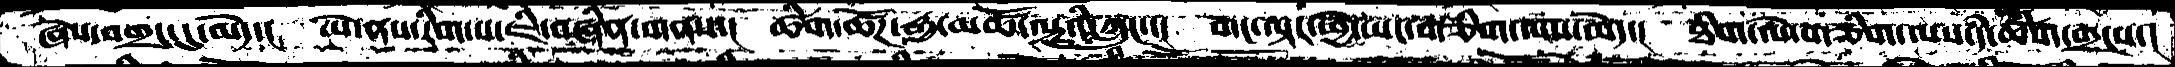ཞེས་བགྲང་དུ་མེད་།   ཡེ་ནས་རིག་པ་ཇི་བཞིན་གནས་།  ཚིག་ཚོཌ་རྒྱ་མཚོ་ལྟུའི་ཀླུང་་།  གང་ལྟར་ཕྱེ་ཡང་གཅིག་ལས་མེད་།  ཐིག་ལེ་གཅིག་ལས་དཾ་ཚིག་གྲངས་།
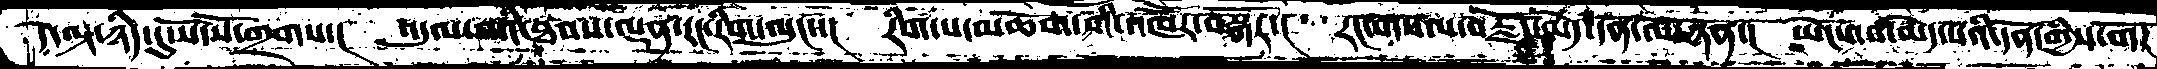དེ་ལྟ་ཉིད་དུ་སོ་སོ་གྲགས་། འདུལ་ཡིད་ཐབས་ལྡན་རང་རིག་ལུང་་། རིག་པ་མཆོག་གི་འཁཽར་བསྐོར་། རང་གསལ་བརྗོད་མེད་དོན་ལ་ཉན་། ཡེངས་པ་མེད་པའི་དོན་གྱིས་གོཌ
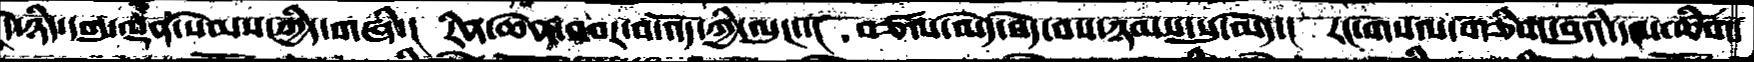དེ་ཉིད་དགུ་ལྡན་སེམས་ཀྱིད་གཞི་།  རིན་ཆེན་འབར་བ་འོད་ཀྱི་ལུང་་།  བཙལ་མེད་བདེ་བས་ཉམས་སུ་མེད་།  རང་གསལ་གཅིག་བུའི་དམ་ཚིག་
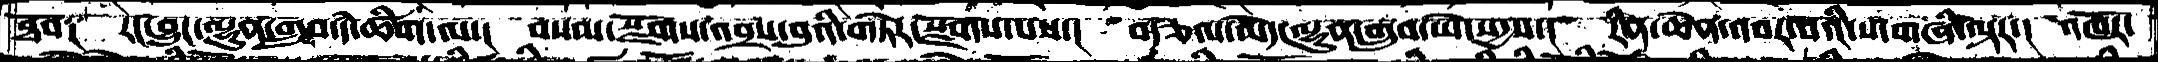ཐོབ༑  རང་བྱུང་ལྷུན་གྲུབ་དཾ་ཚིག་ལ་།  བསམ་སྫོགས་འབྲས་བུའི་གཏེར་སྫོགས་པས་།  བརྩལ་མེད་ལྷུན་གྲུབ་ཡེ་སདྱས་།  རིིན་ཆེན་འབར་བའི་ས་གཞི་ལྟར་།  འཁོར་
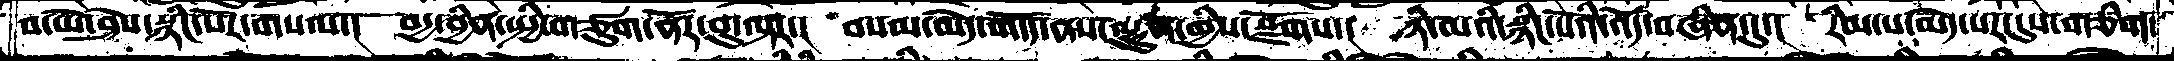བ་ཡེ་ཤེས་སྙིང་པོར་གསལ་།  བདྱ་བྱིན་སྤྱི་གཙུག་ནོར་བུ་ལྟར་།  བསམ་མེད་གདོད་ནས་ལྷུན་གྱིས་སྫོགས་།  ཉི་མའི་སྙིང་པོའི་འོད་བཞིན་དུ་།  རིམ་པ་མེད་པར་དུས་གཅིག་
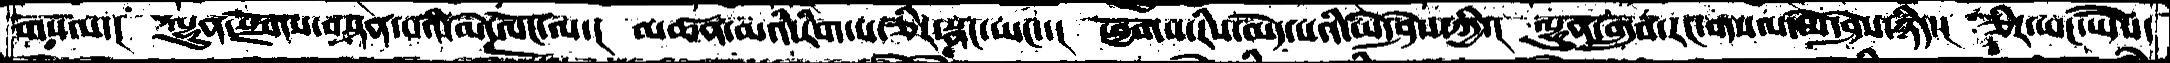གསལ་།  ལྷུན་སྫོགས་བསྟན་པའི་མེ་ལོང་ལ་།  མཚན་མའི་རིག་པ་ཅིར་སྣང་ཡང་་།  ཕྱོགས་རིས་མེད་པའི་ཡེ་ཤེས་ཀྱི་།  ལྷུན་གྲུབ་རང་གསལ་ཡེ་ཤེས་ཉིད་།  ཅིར་ཡང་ཡཻས་
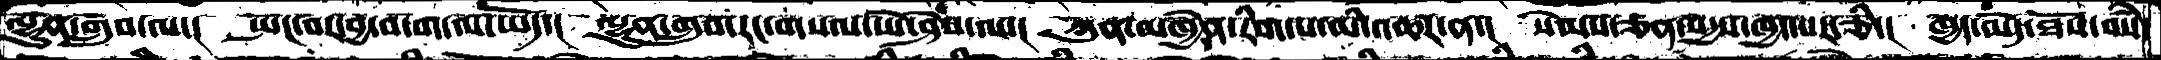ལྷུན་གྲུབ་ལ་།  སྤང་བར་བྱ་བ་ག་ལ་ཡོད་།  ལྷུན་གྲུབ་རང་གསལ་ཡེ་ཤེས་ལ་།  ཀུན་མཁྱེན་རིག་པ་མི་འཆར་ན་།  སེམས་ཅན་སདྱས་ཁྱད་པར་ཅི་།  ཁྱད་མེད་ཐོས་བསཾ་
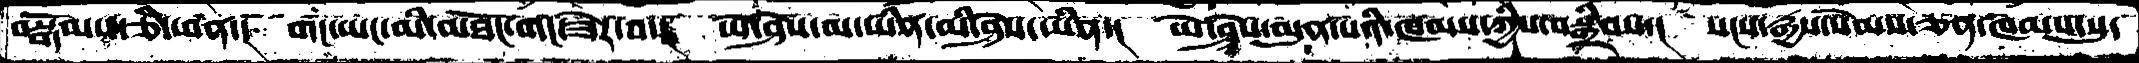བསྒོམས་ཅི་ཕན་།  གང་ཡང་མི་མཐོང་གང་ཟེར་བ་།  ཡེ་ཤེས་མ་ཡིན་མི་ཤེས་ཡིན་ ཡེ་ཤེས་མུན་པའི་ཁམས་ཀྱིས་བསྒྲིབས་།  སངས་རྒྱས་སེམས་ཅན་ཁམས་སུ་
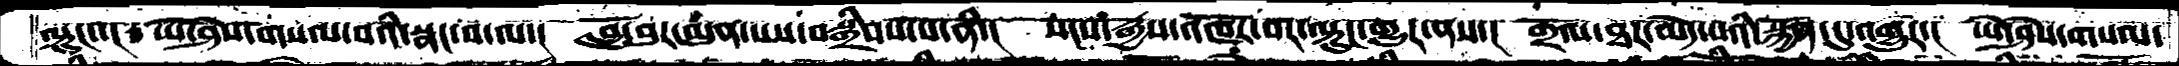ལྟུང་་།  ཡེ་ཤེས་གསལ་བའི་སྣང་བ་ལ་།  བློ་བུར་མུན་པས་བསྒྲིབས་པ་ནི་།  སངས་རྒྱས་འཁོར་བར་ལྟུང་གྱུར་ནས་།  གྲོལ་ཐར་མེད་པའི་སྐྱོན་དུ་འགྱུར་།  ཡེ་ཤེས་གསལ་
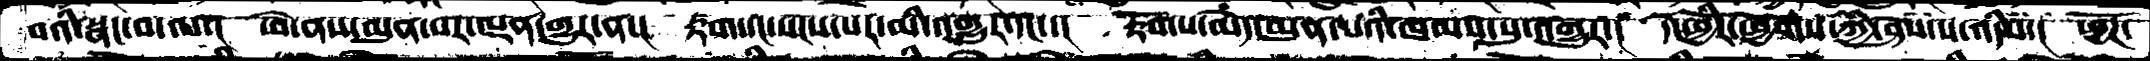བའི་སྣང་བ་ལ་།  ཡེ་ནས་མུན་པར་ལྡན་གྱུར་ན་།  རྟག་དང་སངས་པར་མི་འགྱུར་དང་་།  རྟོགས་མེད་མུན་པའི་ཁམས་སུ་འགྱུར་།  དེ་ཕྱིར་ཕྱོགས་ཀྱི་ཤེས་པ་འདིས་།  ཕྱོཌ་
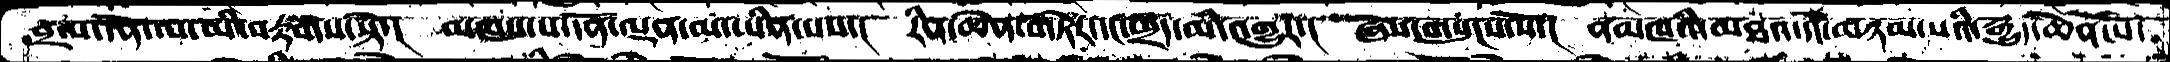བྲལ་དོན་ལ་མི་བརྟགས་སྟེ་།  མཁས་པ་དོན་ལྡན་མ་ཡིན་པས་།  རིན་ཆེན་གཏེར་དང་ཕྲད་མི་འགྱུར་།  ཞེས་གསུངས་སོ་།  ནམཁའི་མཐའ་དང་མཉམ་པའི་རྒྱུད་ཆེན་པོ་
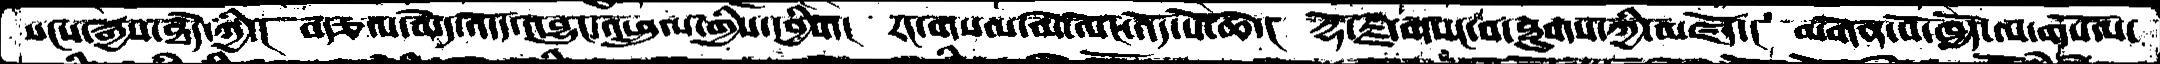སངས་རྒྱས་ཐཾད་ཀྱི་།  བརྩལ་མེད་འདོད་འབྱུང་འཕྲུལ་གྱིས་དབྱིག།  རང་གསལ་མེ་ལོང་འོད་པོ་ཆེ་།  རྡོ་རྗེ་གསང་བ་ཐུགས་ཀྱི་མཛོད་།  མགོན་པོ་ཁྱོད་ལ་གསོལ་
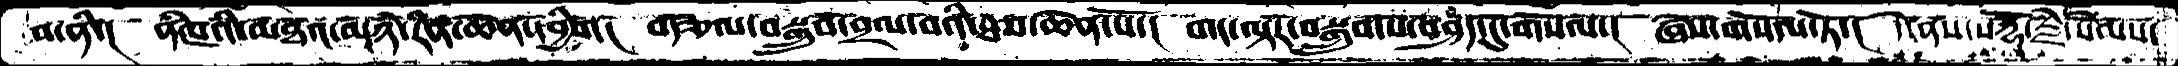བ་ནི་།  ནཾཁའི་མཐའ་མཉཾ་རིན་ཆེན་དབྱིག།   བརྩལ་བསྒྲུབ་བྲལ་བའི་ཐབ་ཆེན་པོ་།  གང་ལྟར་བསྒྲུབ་པ་བཤད་དུ་གསོལ་།  ཞེས་གསོལ་ཏོ་།  དེ་ནས་སརྡོ་རྗེ་སེམས་
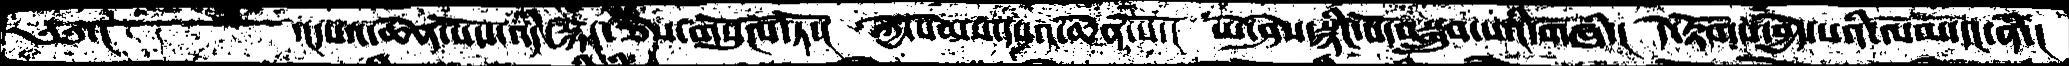༄༅་།      ་།དཔའ་ཆེན་པོས་འདི་སྐད་ཅེས་གསུངས་ཏོ་།  ཀྱེ་སེམས་དཔའ་ཆེན་པོ་།  ཡེ་ཤེས་སྙིང་པོ་བསྒྲུབ་པའི་གཞི་།  དེ་རྟོགས་བྱེད་པའི་ལམ་དང་ནི་།
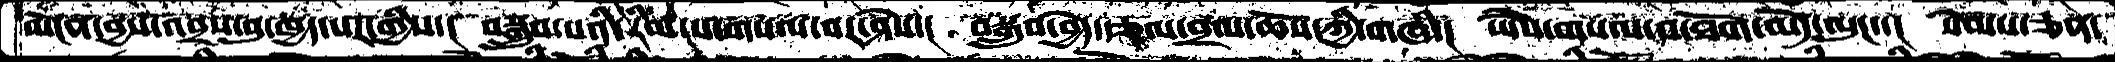མངོན་བྱས་འབྲས་བུ་ཁྱད་པར་གྱིས་།  བསྒྲུབ་པའི་རིམ་པ་གསལ་བར་ཤེས་།  བསྒྲུབ་བྱེད་རྩལ་བྲལ་ཆོས་ཀྱི་གཞི་།  ཡཻས་གསལ་བ་ཐོག་མེད་ལུང་་།  སེམས་ཅན་
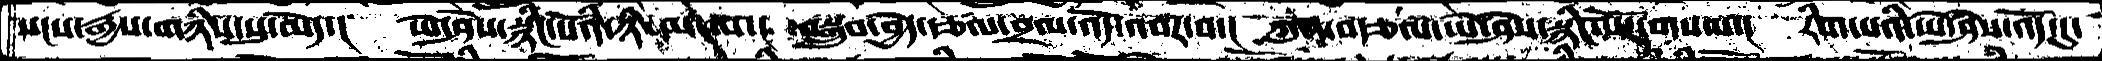སངས་རྒྱས་གཉིས་སུ་མེད་།  ཡེ་ཤེས་སྙིང་པོའི་ཉི་མ་ལ་།   བསྒྲུབ་བྱེད་རྩལ་བྲལ་འོད་འབར་བ་།  ཀུན་བརྩལ་ཡེ་ཤེས་སྙིང་པོར་གསལ་།  རིག་པའི་ཡེ་ཤེས་འོད་དུ་
